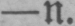— n.
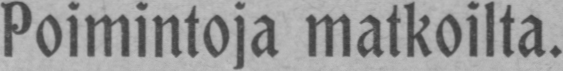Poimintoja matkoilta.
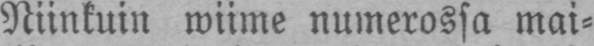Niinkuin wiime numerossa mai-
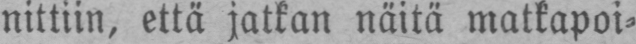nittiin, että jatkan näitä matkapoi-
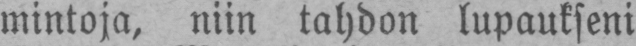mintoja, niin tahdon lupaukseni
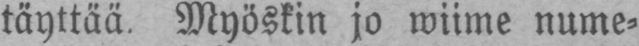täyttää. Myöskin jo wiime nume-
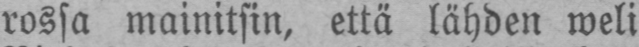rossa mainitsin, että lähden weli
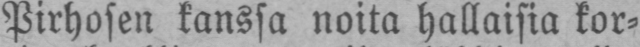Pirhosen kanssa noita hallaisia kor-
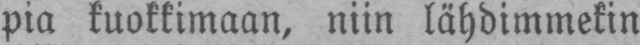pia kuokkimaan, niin lähdimmekin
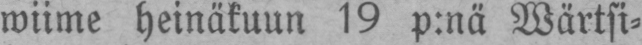wiime heinäkuun 19 p:nä Wärtsi-
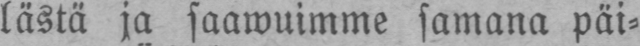lästä ja saawuimme samana päi-
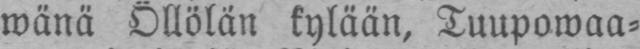wänä Öllölän kylään, Tuupowaa-
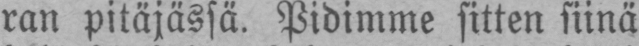ran pitäjässä. Pidimme sitten siinä
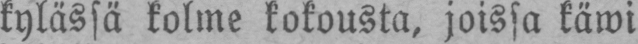kylässä kolme kokousta, joissa käwi
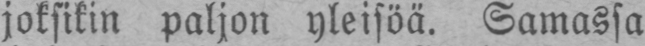joksikin paljon yleisöä. Samassa
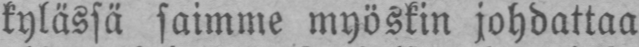kylässä saimme myöskin johdattaa
